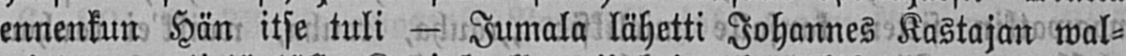ennenkun Hän itse tuli — Jumala lähetti Johannes Kastajan wal-
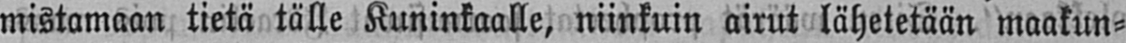mistamaan tietä tälle Kuninkaalle, niinkuin airut lähetetään maakun-
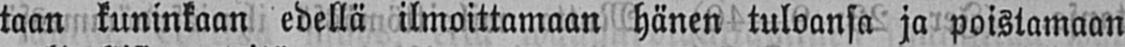taan kuninkaan edellä ilmoittamaan hänen tuloansa ja poistamaan
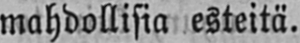mahdollisia esteitä.
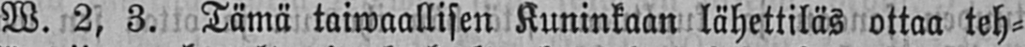W.2,3. Tämä taiwaallisen Kuninkaan lähettiläs ottaa teh-
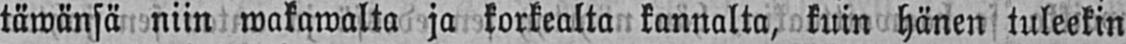täwänsä niin wakawalta ja korkealta kannalta, kuin hänen tuleekin
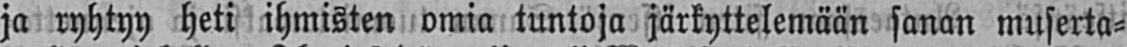ja ryhtyy heti ihmisten omia tuntoja järkyttelemään sanan muserta-
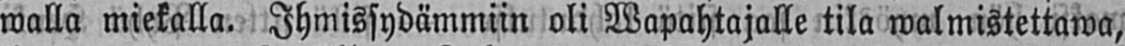walla miekalla. Ihmissydämmiin oli Wapahtajalle tila walmistettawa,
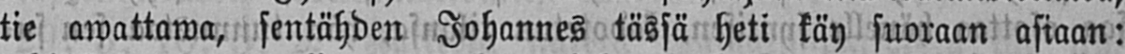tie awattawa, sentähden Johannes tässä heti käy suoraan asiaan:
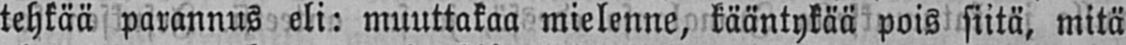tehkää parannus eli: muuttakaa mielenne, kääntykää pois siitä, mitä
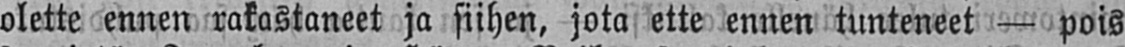olette ennen rakastaneet ja siihen, jota ette ennen tunteneet — pois
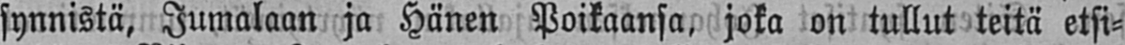synnistä, Jumalaan ja Hänen Poikaansa, joka on tullut teitä etsi-
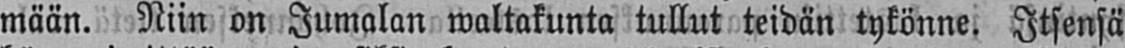mään. Niin on Jumalan waltakunta tullut teidän tykönne. Itsensä
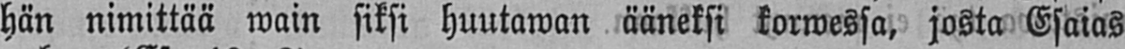hän nimittää wain siksi huutawan ääneksi korwessa, josta Esaias
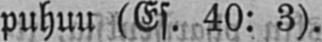puhuu (Es.40:3).
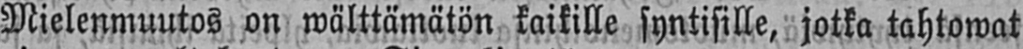Mielenmuutos on wälttämätön kaikille syntisille, jotka tahtowat
